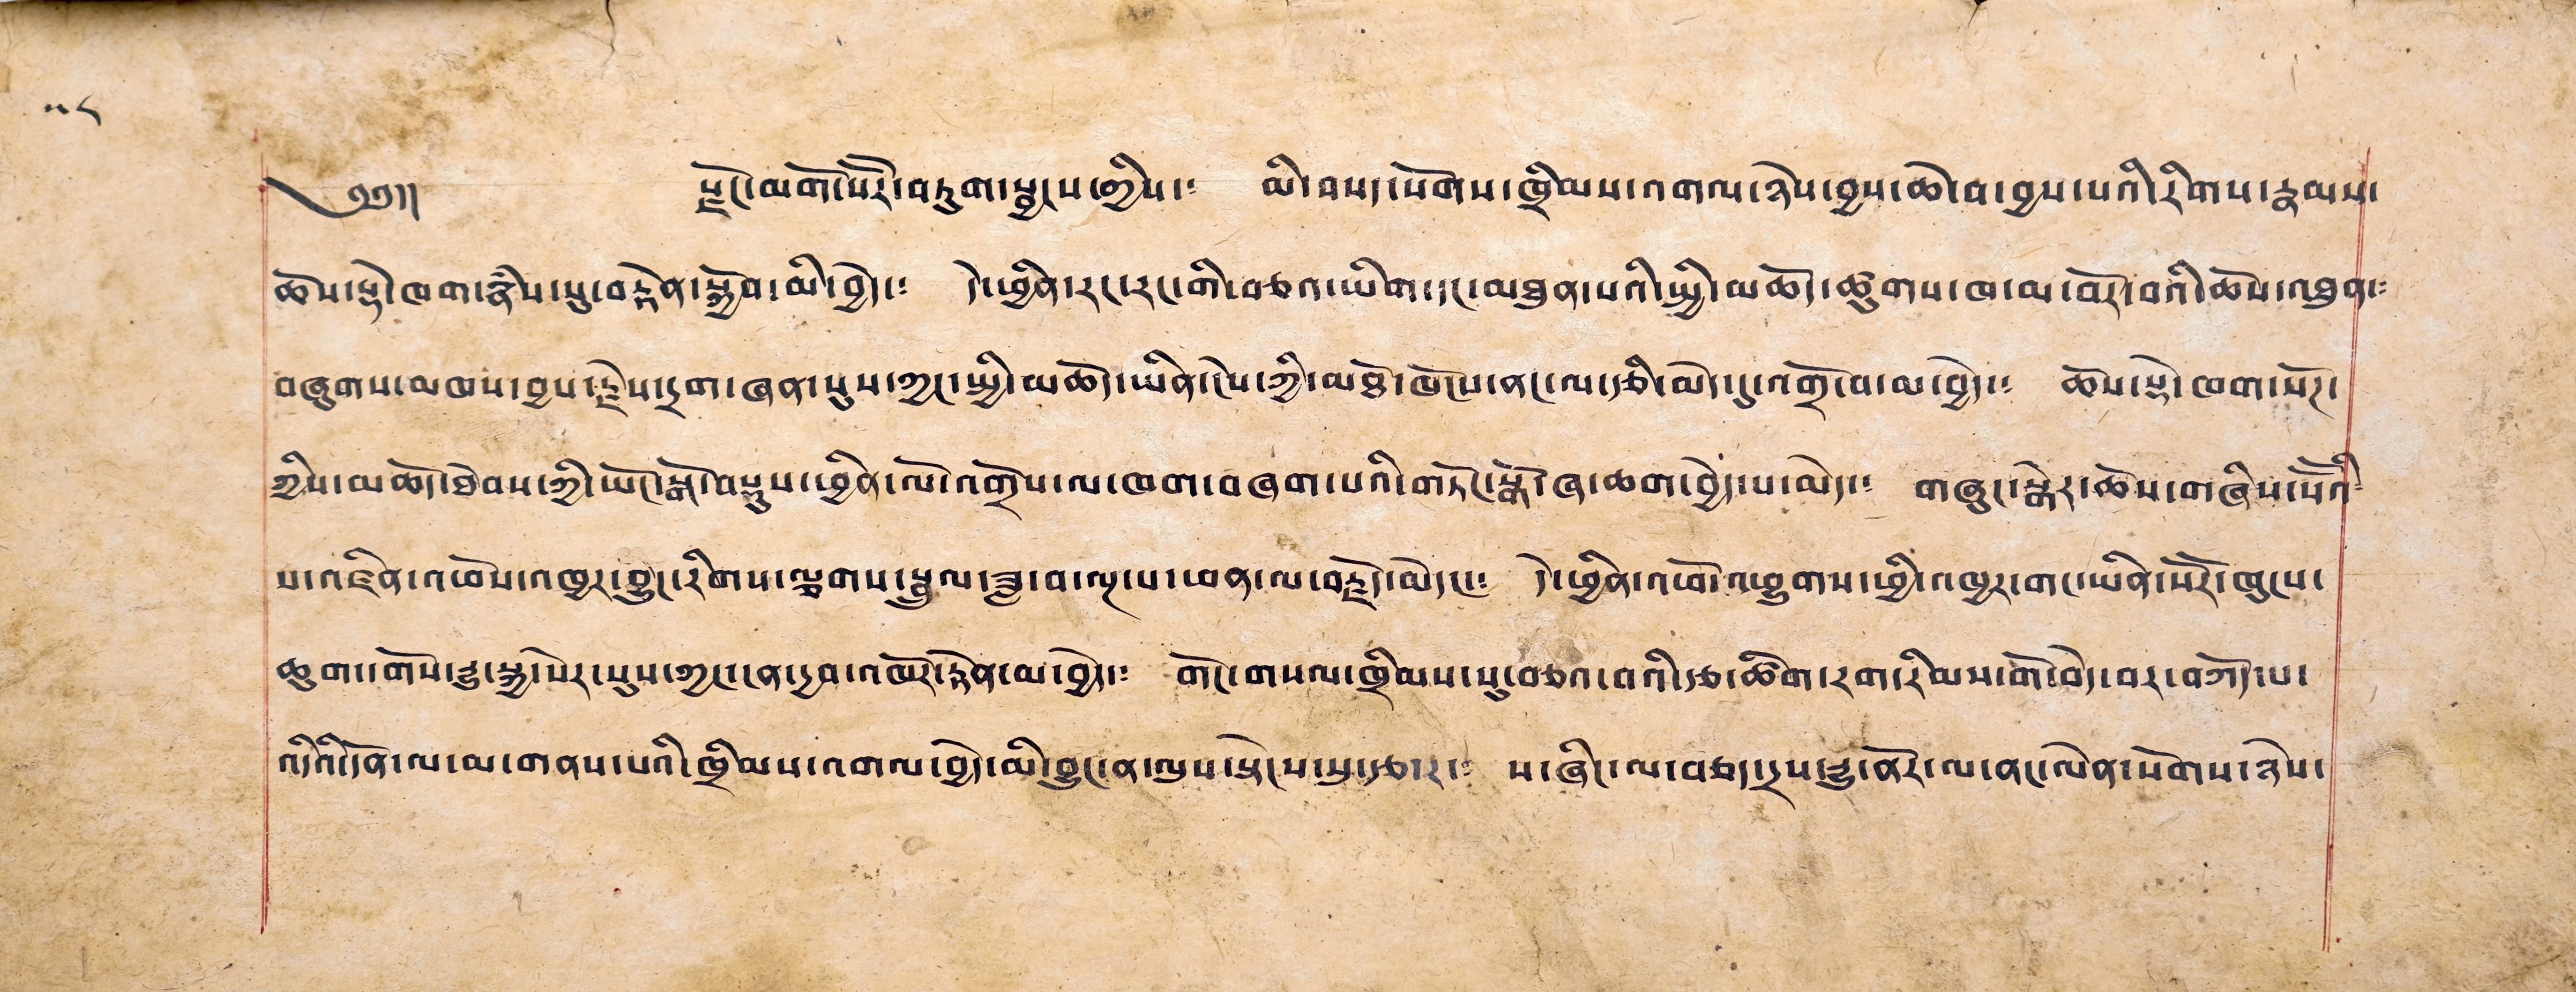༄༅།། རྫོང་མགོ་སོ་སོར་བཏུག་སྦྱངས་གྱིས་༴ མི་བསད་སོགས་ཁྲིམས་འགལ་ཉེས་བྱས་ཆེ་བ་བྱས་པའི་རིགས་རྣམས་
ཆོས་སྡེ་ཁག་རྣཾས་སུ་བརྟེན་སྐྱོབ་མི་བྱེད་༴ དེ་ཕྱིན་རང་རང་གི་བཅའ་ཡིག་དང་མཐུན་པའི་སྤྱི་མཆོད་ཚུགས་ཁ་མ་བོར་བའི་ཆོས་འཐུན་༴
བཞུགས་མཁས་བྱས་རྗེས་དྲག་ཞན་སུས་ཀྱང་སྤྱི་མཆོད་ཡིན་ངེས་ཀྱི་མཐོ་ཁོངས་ནང་ལ་རྩི་མེད་དུ་འགྲོ་བ་མ་བྱེད་༴ ཆོས་སྡེ་ཁག་སོཊ་
ཀྱིས་མཆོད་ཐེབས་ཀྱི་ཡོང་སྒོ་བསྡུས་ཕྱིན་ལོ་འགྲོས་ལ་ཁག་བཞག་པའི་གཏོང་སྒོ་ཞ་ཆག་བྱེད་པ་མེད་༴ གཞུང་སྒེར་ཆོས་གཞིས་སོ་སོའི༴
ས་འཛིན་འཕོས་འཁྱར་བྱུང་རིགས་ལྕགས་སྦྲུལ་ཟླ་བ་ལྔ་པ་ཕན་ལ་བརྗོད་མེདང་༴ དེ་ཕྱིན་འཕོ་འཕྱུགས་ཕྱི་འཁྱར་གང་ཡིན་སོ་སོར་ཁུངས་
ཆུག་དགོས་རྒྱུ་སྐྱ་སེར་སུས་ཀྱང་ངན་དྱབ་འཁོར་རྟེན་མ་བྱེད་༴ གོང་གསལ་ཁྲིམས་སུ་བཅའ་བའི་རྩ་ཚིག་རག་རིམས་གོ་བྱེད་བར་བཀོད་པ་
འདིའི་དོན་ལ་མ་གནས་པའི་ཁྲིམས་འགལ་བྱེད་མི་བྱུང་ན་ལུས་སྡེངས་སུ་རྩར་༴ ས་ཞིང་ལ་བཅད་དྲས་རྒྱུ་ནོར་ལ་ནང་ལེན་སོགས་ཉེས་
